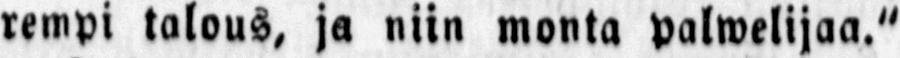rempi talous, ja niin monta palwelijaa."
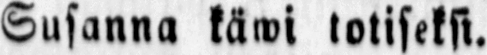Susanna käwi totiseksi.
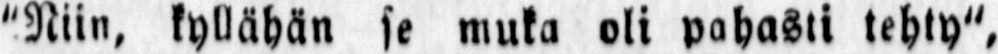"Niin, kyllähän se muka oli pahasti tehty",
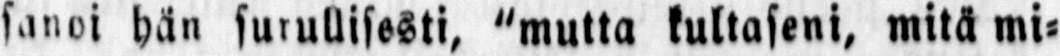sanoi hän surullisesti, "mutta kultaseni, mitä mi-
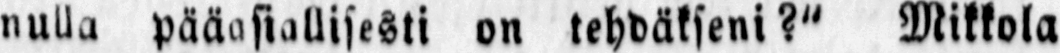nulla pääasiallisesti on tehdäkseni?" Mikkola
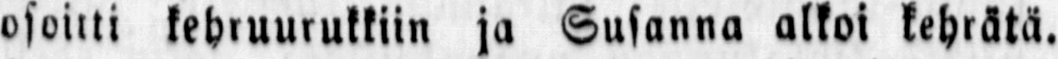osoitti kehruurukkiin ja Susanna alkoi kehrätä.
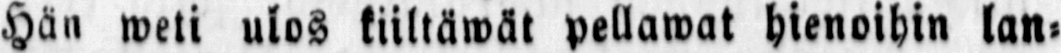Hän weti ulos kiiltäwät pellawat hienoihin lan-
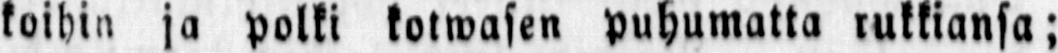koihin ja polki kotwasen puhumatta rukkiansa;
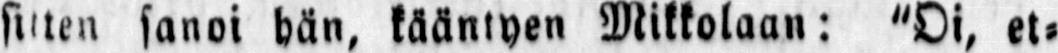sitten sanoi hän, kääntyen Mikkolaan: "Oi, et-
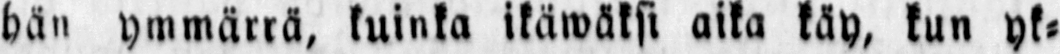hän ymmärrä, kuinka ikäwäksi aika käy, kun yk-
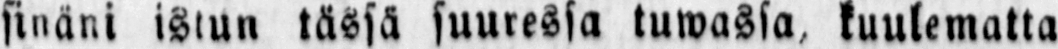sinäni istun tässä suuressa tuwassa, kuulematta
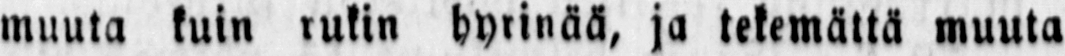muuta kuin rukin hyrinää, ja tekemättä muuta
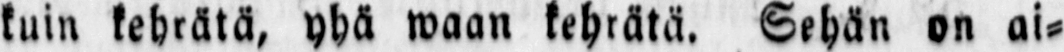kuin kehrätä, yhä waan kehrätä. Sehän on ai-
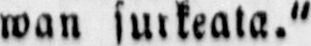wan surkeata."
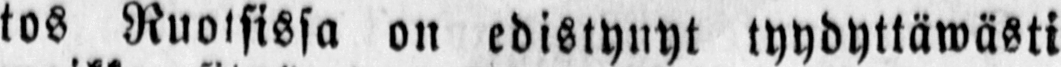tos Ruotsissa on edistynyt tyydyttäwästi
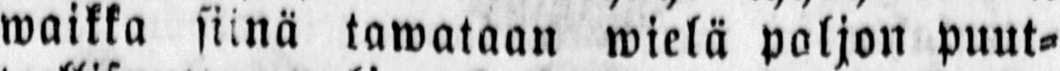waikka siinä tawataan wielä paljon puut-
